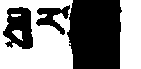ཟུར
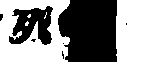死
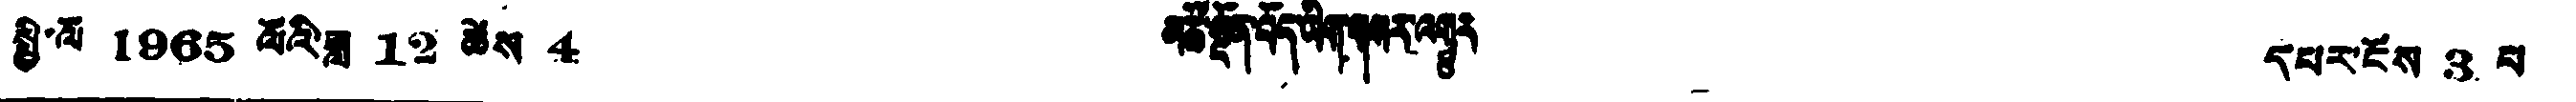སྤྱི་ལོ 1965 ལོའི་ཟླ 12 ཚེས 4 མཚོ་སྔོན་བོད་ཡིག་གསར་འགྱུར དཔར་ངོས 3 པ
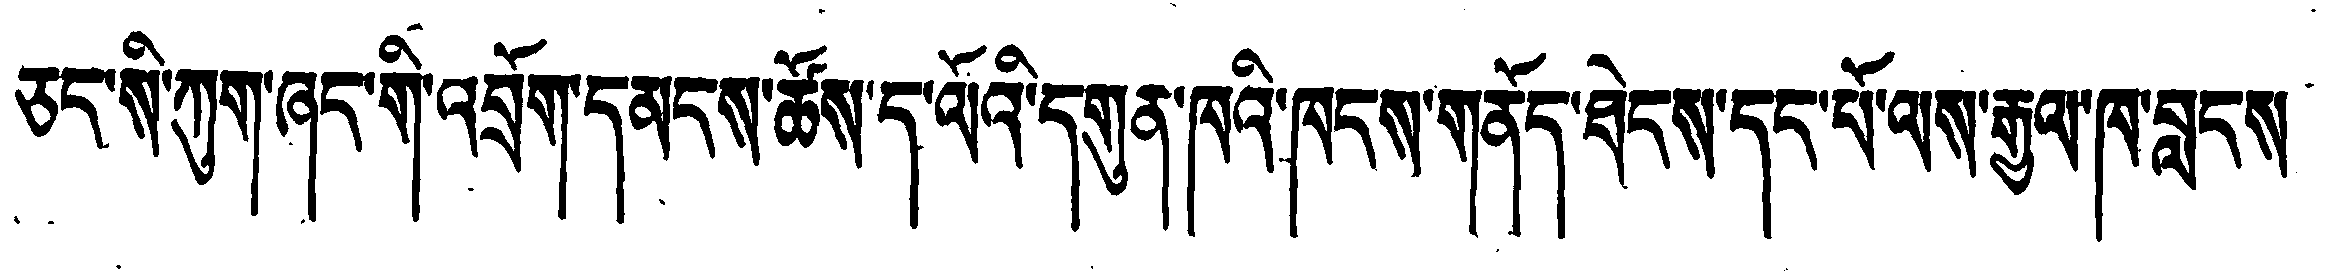ཅང་སི་ཀུག་ཞང་གི་འབྲོག་དམངས་ཚོས་ད་ལོའི་དགུན་ཁའི་ཁངས་གནོད་ཐེངས་དང་པོ་ལས་རྒྱག་ཁ་བླངས
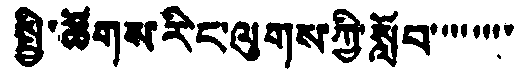སྤྱི་ཚོགས་རིང་ལུགས་ཀྱི་སློབ་་་་་་་་
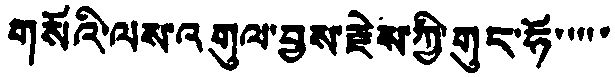གསོའི་ལས་འགུལ་བྱས་རྗེས་ཀྱི་གུང་ཧོ་་་་་
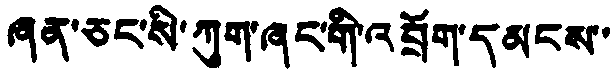ཞན་ཅང་སི་ཀུག་ཞང་གི་འབྲོག་དམངས་་
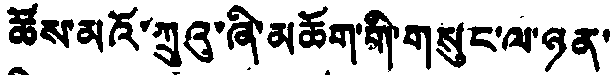ཚོས་མའོ་ཀྲུའུ་ཞི་མཆོག་གི་གསུང་ལ་ཉན་
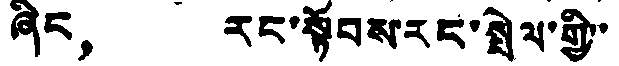ཞིང， རང་སྟོབས་རང་སྤེལ་གྱི་
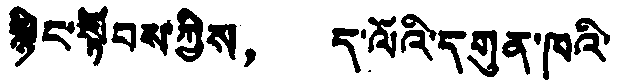སྙིང་སྟོབས་ཀྱིས， ད་ལོའི་དགུན་ཁའི་
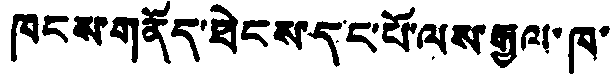ཁུངས་གནོད་ཐེངས་དང་པོ་ལས་རྒྱལ་ཁ་
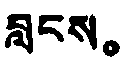བླངས。
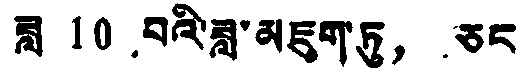ཟླ 10 བའི་ཟླ་མཇུག་ཏུ， ཅང་
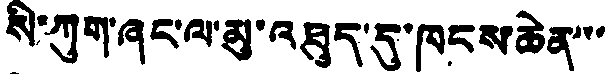སི་ཀུག་ཞང་ལ་མུ་འཐུད་དུ་ཁངས་ཆེན་་་
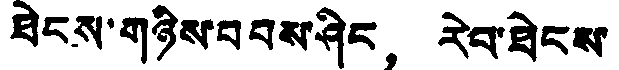ཐེངས་གཉིས་བབས་ཤིང， རེབ་ཐེངས་
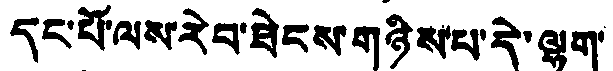དང་པོ་ལས་རེབ་ཐེངས་གཉིས་པ་དེ་ལྷག་
